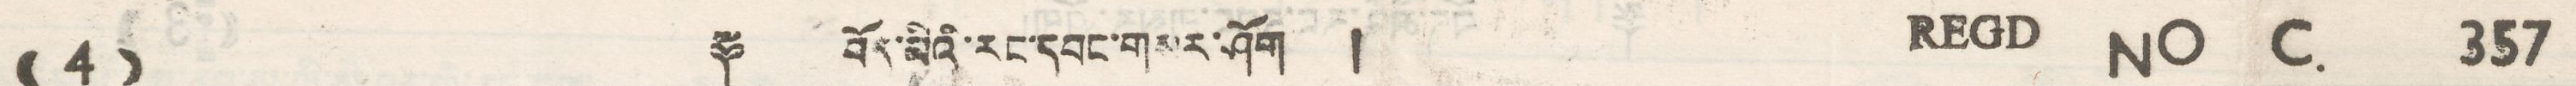(( 4 )) ༈ བོད་མི་རང་དབང་གསར་ཤོག །REGD NO C. 357
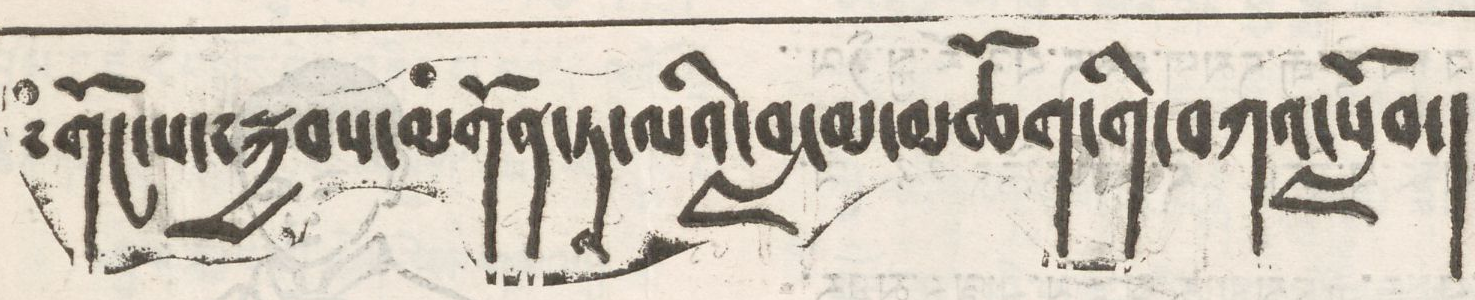༸གོང་ས་༸སྐྱབས་མགོན་ཏཱ་ལའི་བླ་མ་མཆོག་གི་བཀའ་སློབ།
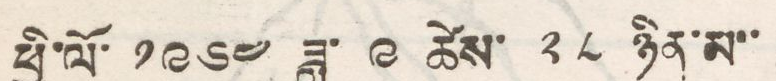ཕྱི་ལོ་ ༡༩༦༤ ཟླ་ ༩ ཚེས་ ༢༨ ཉིན་མ་་
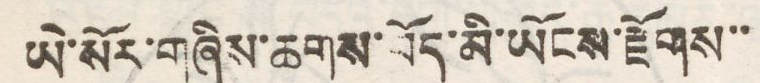ཡེ་སོར་གཞིས་ཆགས་བོད་མི་ཡོངས་རྫོགས་་
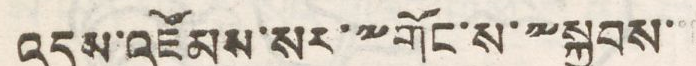འདུས་འཛོམས་སར་༸གོང་ས་༸སྐྱབས་་
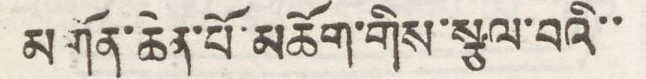མགོན་ཆེན་པོ་མཆོག་གིས་སྩལ་བའི་་
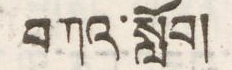བཀའ་སློབ།
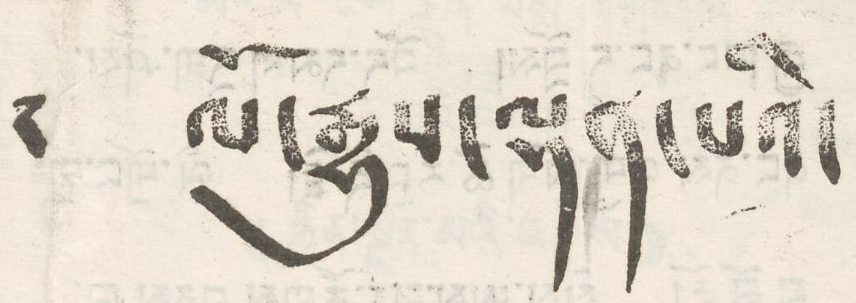༄ ལོ་རྒྱུས་ལྡན་པའི་
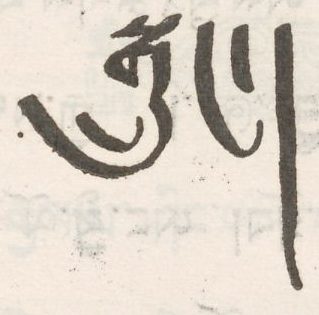སྒྲུང་།
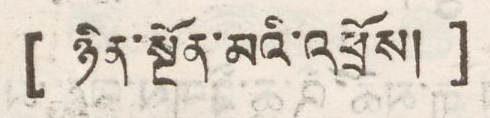[ ཉིན་སྔོན་མའི་འཕྲོས། ]
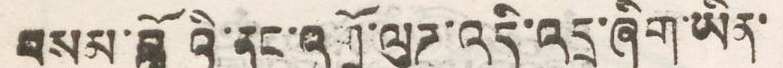བསམ་བློའི་ནང་འགྲོ་ལུཌ་འདི་འདྲ་ཞིག་ཡིན་
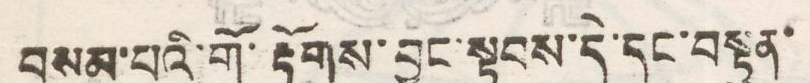བསམ་པའི་གོ་རྟོགས་བྱུང་སྟབས་དེ་དང་བསྟུན་
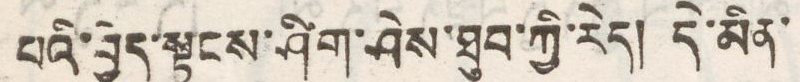པའི་བྱེད་སྟངས་ཤིག་ཤེས་ཐུབ་ཀྱི་རེད། དེ་མིན་
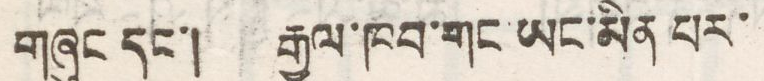གཞུང་དང་། རྒྱལ་ཁབ་གང་ཡང་མིན་པར་
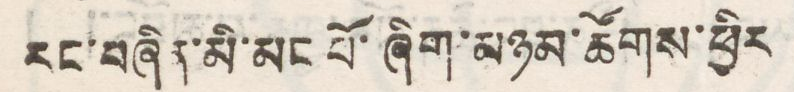རང་བཞིན་མི་མང་ཞིག་མཉམ་ཚོགས་ཕྱིར
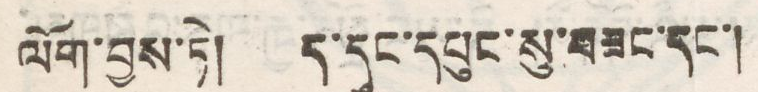ལོག་བྱས་ཏེ། ད་དུང་དཔུང་སུ་བཟང་དང་།
